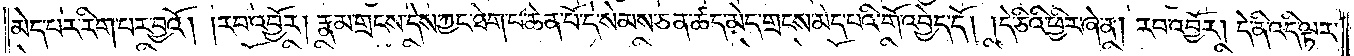མེད་པར་རིག་པར་བྱའོ། །རབ་འབྱོར། རྣམ་གྲངས་དེས་ཀྱང་ཐེག་པ་ཆེན་པོ་དེ་སེམས་ཅན་ཚད་མེད་གྲངས་མེད་པའི་གོ་འབྱེད་དོ། །དེ་ཅིའི་ཕྱིར་ཞེ་ན། རབ་འབྱོར། དེ་ནི་འདི་ལྟར་
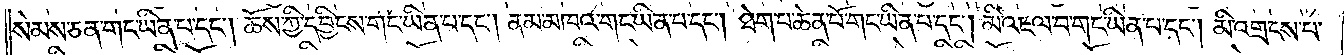སེམས་ཅན་གང་ཡིན་པ་དང༌། ཆོས་ཀྱི་དབྱིངས་གང་ཡིན་པ་དང༌། ནམ་མཁའ་གང་ཡིན་པ་དང༌། ཐེག་པ་ཆེན་པོ་གང་ཡིན་པ་དང༌། མི་འཇལ་བ་གང་ཡིན་པ་དང༌། མི་འགྲངས་པ་
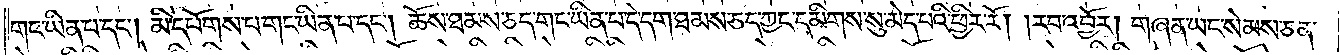གང་ཡིན་པ་དང༌། མི་དཔོགས་པ་གང་ཡིན་པ་དང༌། ཆོས་ཐམས་ཅད་གང་ཡིན་པ་དེ་དག་ཐམས་ཅད་ཀྱང་དམིགས་སུ་མེད་པའི་ཕྱིར་རོ། །རབ་འབྱོར། གཞན་ཡང་སེམས་ཅན་
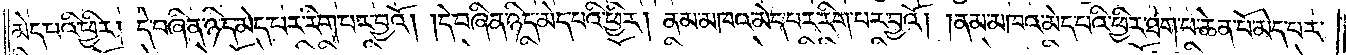མེད་པའི་ཕྱིར། དེ་བཞིན་ཉིད་མེད་པར་རིག་པར་བྱའོ། །དེ་བཞིན་ཉིད་མེད་པའི་ཕྱིར། ནམ་མཁའ་མེད་པར་རིག་པར་བྱའོ། །ནམ་མཁའ་མེད་པའི་ཕྱིར་ཐེག་པ་ཆེན་པོ་མེད་པར་
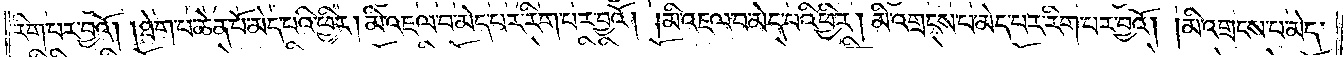རིག་པར་བྱའོ། །ཐེག་པ་ཆེན་པོ་མེད་པའི་ཕྱིར་མི་འཇལ་བ་མེད་པར་རིག་པར་བྱའོ། །མི་འཇལ་བ་མེད་པའི་ཕྱིར་མི་འགྲངས་པ་མེད་པར་རིག་པར་བྱའོ། །མི་འགྲངས་པ་མེད་
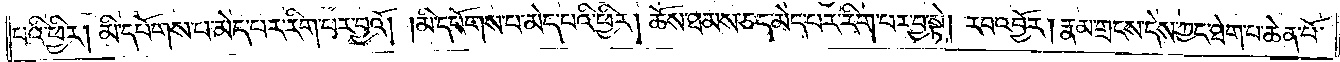པའི་ཕྱིར། མི་དཔོགས་པ་མེད་པར་རིག་པར་བྱའོ། །མི་དཔོགས་པ་མེད་པའི་ཕྱིར། ཆོས་ཐམས་ཅད་མེད་པར་རིག་པར་བྱ་སྟེ། རབ་འབྱོར། རྣམ་གྲངས་དེས་ཀྱང་ཐེག་པ་ཆེན་པོ་
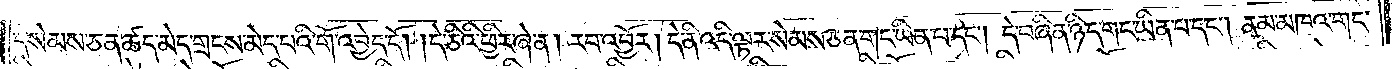དེ་སེམས་ཅན་ཚད་མེད་གྲངས་མེད་པའི་གོ་འབྱེད་དོ། །དེ་ཅིའི་ཕྱིར་ཞེ་ན། རབ་འབྱོར། དེ་ནི་འདི་ལྟར་སེམས་ཅན་གང་ཡིན་པ་དང༌། དེ་བཞིན་ཉིད་གང་ཡིན་པ་དང༌། ནམ་མཁའ་གང་
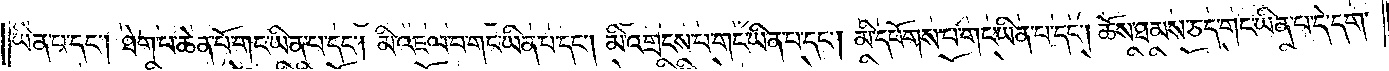ཡིན་པ་དང༌། ཐེག་པ་ཆེན་པོ་གང་ཡིན་པ་དང༌། མི་འཇལ་བ་གང་ཡིན་པ་དང༌། མི་འགྲངས་པ་གང་ཡིན་པ་དང༌། མི་དཔོགས་པ་གང་ཡིན་པ་དང༌། ཆོས་ཐམས་ཅད་གང་ཡིན་པ་དེ་དག་
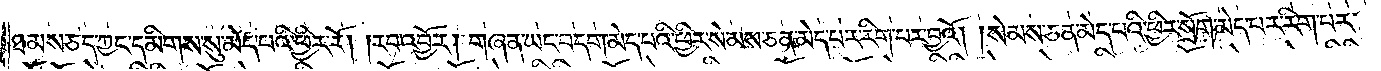ཐམས་ཅད་ཀྱང་དམིགས་སུ་མེད་པའི་ཕྱིར་རོ། །རབ་འབྱོར། གཞན་ཡང་བདག་མེད་པའི་ཕྱིར་སེམས་ཅན་མེད་པར་རིག་པར་བྱའོ། །སེམས་ཅན་མེད་པའི་ཕྱིར་སྲོག་མེད་པར་རིག་པར་
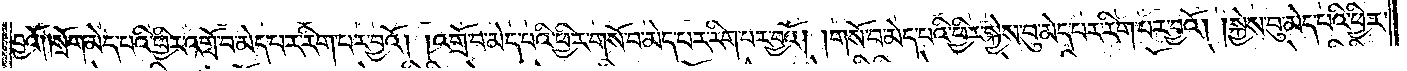བྱའོ། །སྲོག་མེད་པའི་ཕྱིར་འགྲོ་བ་མེད་པར་རིག་པར་བྱའོ། །འགྲོ་བ་མེད་པའི་ཕྱིར་གསོ་བ་མེད་པར་རིག་པར་བྱའོ། །གསོ་བ་མེད་པའི་ཕྱིར་སྐྱེས་བུ་མེད་པར་རིག་པར་བྱའོ། །སྐྱེས་བུ་མེད་པའི་ཕྱིར་
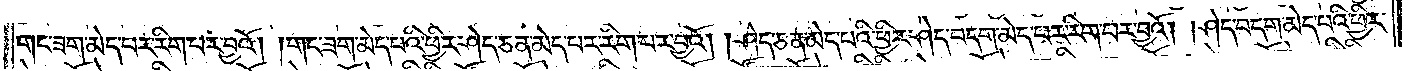གང་ཟག་མེད་པར་རིག་པར་བྱའོ། །གང་ཟག་མེད་པའི་ཕྱིར་ཤེད་ཅན་མེད་པར་རིག་པར་བྱའོ། །ཤེད་ཅན་མེད་པའི་ཕྱིར་ཤེད་བདག་མེད་པར་རིག་པར་བྱའོ། །ཤེད་བདག་མེད་པའི་ཕྱིར་
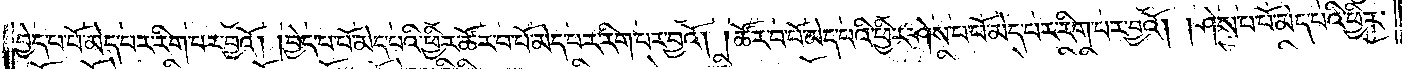བྱེད་པ་པོ་མེད་པར་རིག་པར་བྱའོ། །བྱེད་པ་པོ་མེད་པའི་ཕྱིར་ཚོར་བ་པོ་མེད་པར་རིག་པར་བྱའོ། །ཚོར་བ་པོ་མེད་པའི་ཕྱིར་ཤེས་པ་པོ་མེད་པར་རིག་པར་བྱའོ། །ཤེས་པ་པོ་མེད་པའི་ཕྱིར་
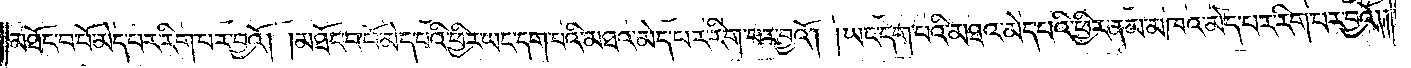མཐོང་བ་པོ་མེད་པར་རིག་པར་བྱའོ། །མཐོང་བ་པོ་མེད་པའི་ཕྱིར་ཡང་དག་པའི་མཐའ་མེད་པར་རིག་པར་བྱའོ། །ཡང་དག་པའི་མཐའ་མེད་པའི་ཕྱིར་ནམ་མཁའ་མེད་པར་རིག་པར་བྱའོ། །
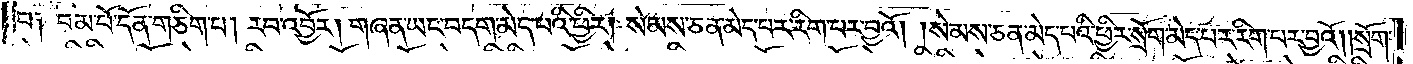པ། །བམ་པོ་དོན་གཅིག་པ། །རབ་འབྱོར། གཞན་ཡང་བདག་མེད་པའི་ཕྱིར། སེམས་ཅན་མེད་པར་རིག་པར་བྱའོ། །སེམས་ཅན་མེད་པའི་ཕྱིར་སྲོག་མེད་པར་རིག་པར་བྱའོ། །སྲོག་
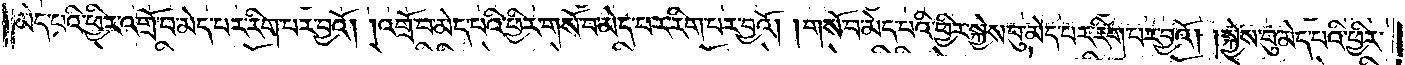མེད་པའི་ཕྱིར་འགྲོ་བ་མེད་པར་རིག་པར་བྱའོ། །འགྲོ་བ་མེད་པའི་ཕྱིར་གསོ་བ་མེད་པར་རིག་པར་བྱའོ། །གསོ་བ་མེད་པའི་ཕྱིར་སྐྱེས་བུ་མེད་པར་རིག་པར་བྱའོ། །སྐྱེས་བུ་མེད་པའི་ཕྱིར་
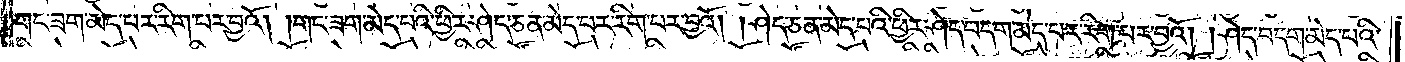གང་ཟག་མེད་པར་རིག་པར་བྱའོ། །གང་ཟག་མེད་པའི་ཕྱིར་ཤེད་ཅན་མེད་པར་རིག་པར་བྱའོ། །ཤེད་ཅན་མེད་པའི་ཕྱིར་ཤེད་བདག་མེད་པར་རིག་པར་བྱའོ། །ཤེད་བདག་མེད་པའི་
